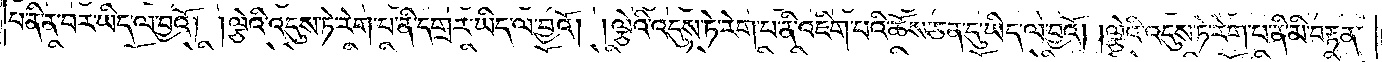པ་ནི་ན་བར་ཡིད་ལ་བྱའོ། །ལྕེའི་འདུས་ཏེ་རེག་པ་ནི་དགྲར་ཡིད་ལ་བྱའོ། །ལྕེའི་འདུས་ཏེ་རེག་པ་ནི་འཇིག་པའི་ཆོས་ཅན་དུ་ཡིད་ལ་བྱའོ། །ལྕེའི་འདུས་ཏེ་རེག་པ་ནི་མི་བརྟན་
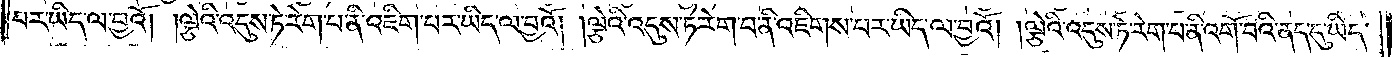པར་ཡིད་ལ་བྱའོ། །ལྕེའི་འདུས་ཏེ་རེག་པ་ནི་འཇིག་པར་ཡིད་ལ་བྱའོ། །ལྕེའི་འདུས་ཏེ་རེག་པ་ནི་འཇིགས་པར་ཡིད་ལ་བྱའོ། །ལྕེའི་འདུས་ཏེ་རེག་པ་ནི་འགོ་བའི་ནད་དུ་ཡིད་
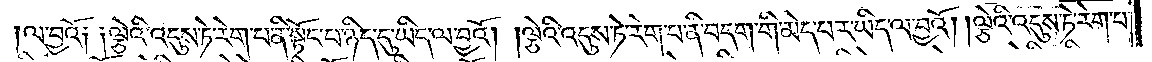ལ་བྱའོ༏ ༏ལྕེའི་འདུས་ཏེ་རེག་པ་ནི་སྟོང་པ་ཉིད་དུ་ཡིད་ལ་བྱའོ། །ལྕེའི་འདུས་ཏེ་རེག་པ་ནི་བདག་གི་མེད་པར་ཡིད་ལ་བྱའོ། །ལྕེའི་འདུས་ཏེ་རེག་པ་
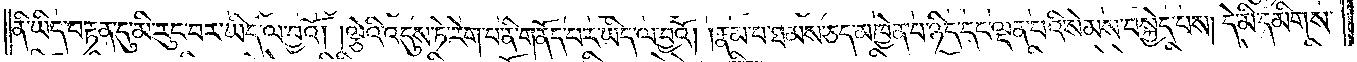ནི་ཡིད་བརྟན་དུ་མི་རུང་བར་ཡིད་ལ་བྱའོ། །ལྕེའི་འདུས་ཏེ་རེག་པ་ནི་གནོད་པར་ཡིད་ལ་བྱའོ། །རྣམ་པ་ཐམས་ཅད་མཁྱེན་པ་ཉིད་དང་ལྡན་པའི་སེམས་བསྐྱེད་པས། དེ་མི་དམིགས་
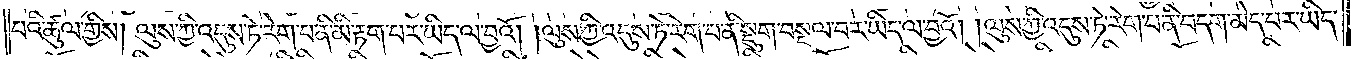པའི་ཚུལ་གྱིས། ལུས་ཀྱི་འདུས་ཏེ་རེག་པ་ནི་མི་བརྟག་པར་ཡིད་ལ་བྱའོ། །ལུས་ཀྱི་འདུས་ཏེ་རེག་པ་ནི་སྡུག་བསྔལ་བར་ཡིད་ལ་བྱའོ། །ལུས་ཀྱི་འདུས་ཏེ་རེག་པ་ནི་བདག་མེད་པར་ཡིད་
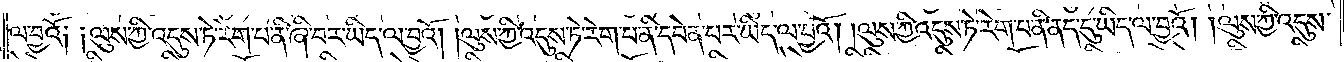ལ་བྱའོ༏ ༏ལུས་ཀྱི་འདུས་ཏེ་རེག་པ་ནི་ཞི་བར་ཡིད་ལ་བྱའོ། །ལུས་ཀྱི་འདུས་ཏེ་རེག་པ་ནི་དབེན་པར་ཡིད་ལ་བྱའོ། །ལུས་ཀྱི་འདུས་ཏེ་རེག་པ་ནི་ནད་དུ་ཡིད་ལ་བྱའོ། །ལུས་ཀྱི་འདུས་
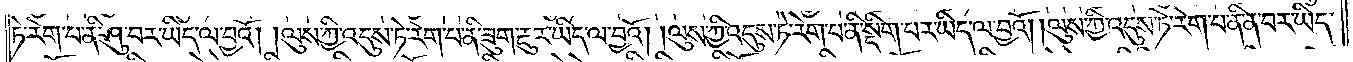ཏེ་རེག་པ་ནི་ཤུ་བར་ཡིད་ལ་བྱའོ། །ལུས་ཀྱི་འདུས་ཏེ་རེག་པ་ནི་ཟུག་རྔུར་ཡིད་ལ་བྱའོ། །ལུས་ཀྱི་འདུས་ཏེ་རེག་པ་ནི་སྡིག་པར་ཡིད་ལ་བྱའོ། །ལུས་ཀྱི་འདུས་ཏེ་རེག་པ་ནི་ན་བར་ཡིད་
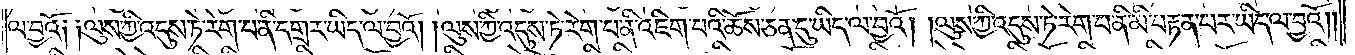ལ་བྱའོ༏ ༏ལུས་ཀྱི་འདུས་ཏེ་རེག་པ་ནི་དགྲར་ཡིད་ལ་བྱའོ། །ལུས་ཀྱི་འདུས་ཏེ་རེག་པ་ནི་འཇིག་པའི་ཆོས་ཅན་དུ་ཡིད་ལ་བྱའོ། །ལུས་ཀྱི་འདུས་ཏེ་རེག་པ་ནི་མི་བརྟན་པར་ཡིད་ལ་བྱའོ། །
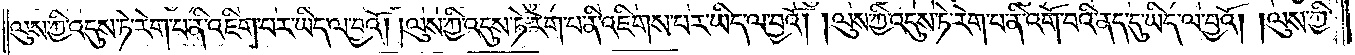ལུས་ཀྱི་འདུས་ཏེ་རེག་པ་ནི་འཇིག་པར་ཡིད་ལ་བྱའོ། །ལུས་ཀྱི་འདུས་ཏེ་རེག་པ་ནི་འཇིགས་པར་ཡིད་ལ་བྱའོ། །ལུས་ཀྱི་འདུས་ཏེ་རེག་པ་ནི་འགོ་བའི་ནད་དུ་ཡིད་ལ་བྱའོ། །ལུས་ཀྱི་
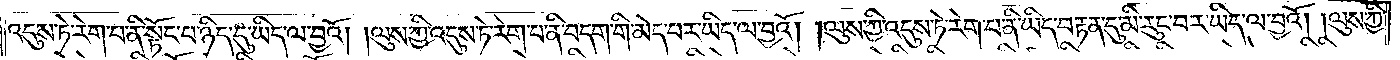འདུས་ཏེ་རེག་པ་ནི་སྟོང་པ་ཉིད་དུ་ཡིད་ལ་བྱའོ། །ལུས་ཀྱི་འདུས་ཏེ་རེག་པ་ནི་བདག་གི་མེད་པར་ཡིད་ལ་བྱའོ། །ལུས་ཀྱི་འདུས་ཏེ་རེག་པ་ནི་ཡིད་བརྟན་དུ་མི་རུང་བར་ཡིད་ལ་བྱའོ། །ལུས་ཀྱི་
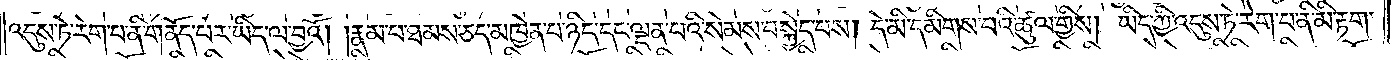འདུས་ཏེ་རེག་པ་ནི་གནོད་པར་ཡིད་ལ་བྱའོ། །རྣམ་པ་ཐམས་ཅད་མཁྱེན་པ་ཉིད་དང་ལྡན་པའི་སེམས་བསྐྱེད་པས། དེ་མི་དམིགས་པའི་ཚུལ་གྱིས། ཡིད་ཀྱི་འདུས་ཏེ་རེག་པ་ནི་མི་རྟག་
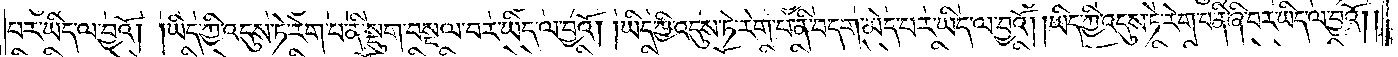པར་ཡིད་ལ་བྱའོ། །ཡིད་ཀྱི་འདུས་ཏེ་རེག་པ་ནི་སྡུག་བསྔལ་བར་ཡིད་ལ་བྱའོ། །ཡིད་ཀྱི་འདུས་ཏེ་རེག་པ་ནི་བདག་མེད་པར་ཡིད་ལ་བྱའོ། །ཡིད་ཀྱི་འདུས་ཏེ་རེག་པ་ནི་ཞི་བར་ཡིད་ལ་བྱའོ། །
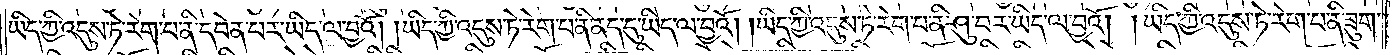ཡིད་ཀྱི་འདུས་ཏེ་རེག་པ་ནི་དབེན་པར་ཡིད་ལ་བྱའོ། །ཡིད་ཀྱི་འདུས་ཏེ་རེག་པ་ནི་ནད་དུ་ཡིད་ལ་བྱའོ། །ཡིད་ཀྱི་འདུས་ཏེ་རེག་པ་ནི་ཤུ་བར་ཡིད་ལ་བྱའོ། །ཡིད་ཀྱི་འདུས་ཏེ་རེག་པ་ནི་ཟུག་
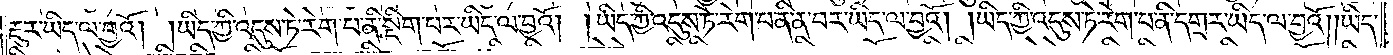རྔུར་ཡིད་ལ་བྱའོ། །ཡིད་ཀྱི་འདུས་ཏེ་རེག་པ་ནི་སྡིག་པར་ཡིད་ལ་བྱའོ། །ཡིད་ཀྱི་འདུས་ཏེ་རེག་པ་ནི་ན་བར་ཡིད་ལ་བྱའོ། །ཡིད་ཀྱི་འདུས་ཏེ་རེག་པ་ནི་དགྲར་ཡིད་ལ་བྱའོ། །ཡིད་
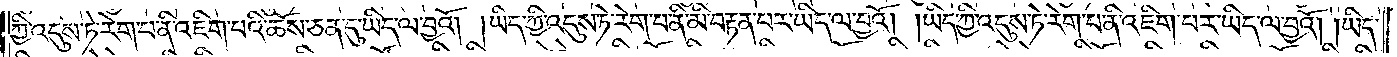ཀྱི་འདུས་ཏེ་རེག་པ་ནི་འཇིག་པའི་ཆོས་ཅན་དུ་ཡིད་ལ་བྱའོ། །ཡིད་ཀྱི་འདུས་ཏེ་རེག་པ་ནི་མི་བརྟན་པར་ཡིད་ལ་བྱའོ། །ཡིད་ཀྱི་འདུས་ཏེ་རེག་པ་ན་འཇིག་པར་ཡིད་ལ་བྱའོ། །ཡིད་
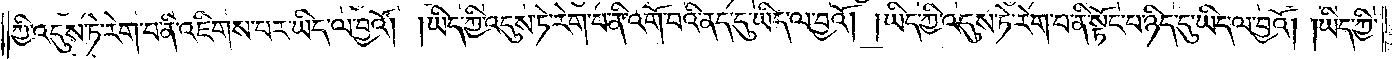ཀྱི་འདུས་ཏེ་རེག་པ་ནི་འཇིགས་པར་ཡིད་ལ་བྱའོ། །ཡིད་ཀྱི་འདུས་ཏེ་རེག་པ་ནི་འགོ་བའི་ནད་དུ་ཡིད་ལ་བྱའོ། །ཡིད་ཀྱི་འདུས་ཏེ་རེག་པ་ནི་སྟོང་པ་ཉིད་དུ་ཡིད་ལ་བྱའོ། །ཡིད་ཀྱི་
